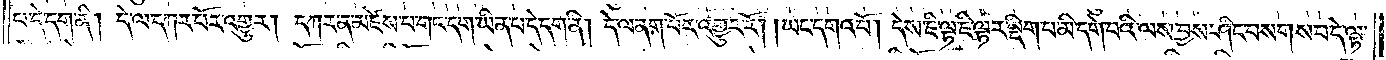པ་དེ་དག་ནི། དེ་ལ་དཀར་པོར་འགྱུར། དཀར་ན་མཛེས་པ་གང་དག་ཡིན་པ་དེ་དག་ནི། དེ་ལ་ནག་པོར་འགྱུར་རོ། །ཡང་དགའ་བོ། དེས་ཇི་ལྟ་ཇི་ལྟར་སྡིག་པ་མི་དགེ་བའི་ལས་བྱས་ཤིང་བསགས་པ་དེ་ལྟ་
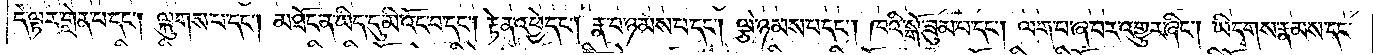དེ་ལྟར་གླེན་པ་དང༌། ལྐུགས་པ་དང༌། མཐོང་ན་ཡིད་དུ་མི་འོང་བ་དང༌། རྟེན་འཕྱེ་དང༌། རྣ་བ་ཉམས་པ་དང༌། ལྕེ་ཉམས་པ་དང༌། ཁའི་སྒོ་ཟུམ་པ་དང༌། ལག་པ་ཞ་བར་འགྱུར་ཞིང༌། ཡི་དྭགས་རྣམས་དང་
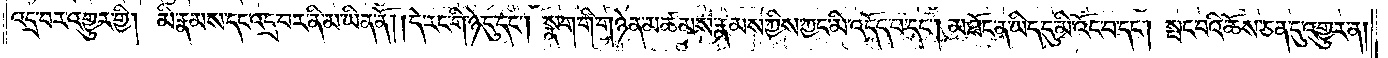འདྲ་བར་འགྱུར་གྱི། མི་རྣམས་དང་འདྲ་བར་ནི་མ་ཡིན་ནོ། །དེ་རང་གི་ཉེ་དུ་དང༌། སྣག་གི་གཉེན་མཚམས་རྣམས་ཀྱིས་ཀྱང་མི་འདོད་པ་དང༌། མཐོང་ན་ཡིད་དུ་མི་འོང་བ་དང༌། སྤང་བའི་ཆོས་ཅན་དུ་འགྱུར་ན།
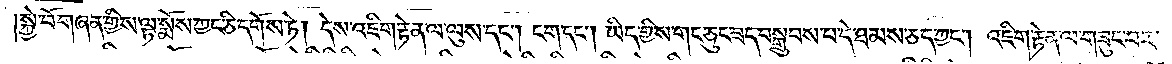སྐྱེ་བོ་གཞན་གྱིས་ལ་སྨོས་ཀྱང་ཅི་དགོས་ཏེ། དེས་འཇིག་རྟེན་ལ་ལུས་དང༌། ངག་དང༌། ཡིད་གྱིས་གང་ཅུང་ཟད་བསྒྲུབས་པ་དེ་ཐམས་ཅད་ཀྱང༌། འཇིག་རྟེན་ལ་གཟུང་བར་
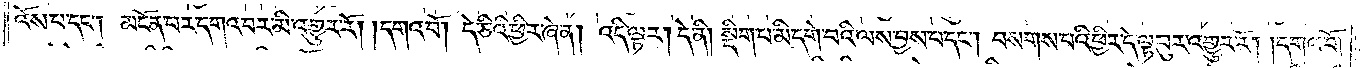འོས་པ་དང༌། མངོན་པར་དགའ་བར་མི་འགྱུར་རོ། །དགའ་བོ། དེ་ཅིའི་ཕྱིར་ཞེ་ན། འདི་ལྟར། དེ་ནི། སྡིག་པ་མི་དགེ་བའི་ལས་བྱས་པ་དང༌། བསགས་པའི་ཕྱིར་དེ་ལྟ་བུར་འགྱུར་རོ། །དགའ་བོ།
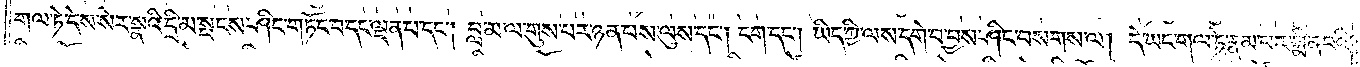གལ་ཏེ་དེས་སེར་སྣའི་དྲི་མ་སྤངས་ཤིང་གཏོང་བ་དང་ལྡན་པ་དང༌། བླ་མ་ལ་གུས་པར་ཉན་པས་ལུས་དང༌། ངག་དང༌། ཡིད་ཀྱི་ལས་དགེ་བ་བྱས་ཤིང་བསགས་ལ། དེ་ཡང་གལ་ཏེ་རྣམ་པར་སྨིན་པའི་
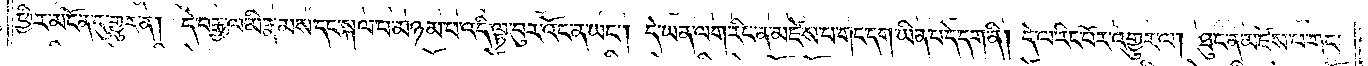ཕྱིར་མངོན་དུ་གྱུར་ན། དེ་བརྒྱ་ལ་མི་རྣམས་དང་སྐལ་པ་མཉམ་པ་འདི་ལྟ་བུར་འོང་ན་ཡང༌། དེ་ཡན་ལག་རིང་ན་མཛེས་པ་གང་དག་ཡིན་པ་དེ་དག་ནི། དེ་ལ་རིང་པོར་འགྱུར་ལ། ཐུང་ན་མཛེས་པ་གང་
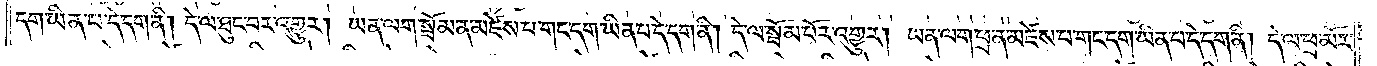དག་ཡིན་པ་དེ་དག་ནི། དེ་ལ་ཐུང་བར་འགྱུར། ཡན་ལག་སྦོམ་ན་མཛེས་པ་གང་དག་ཡིན་པ་དེ་དག་ནི། དེ་ལ་སྦོམ་པོར་འགྱུར། ཡན་ལག་ཕྲ་ན་མཛེས་པ་གང་དག་ཡིན་པ་དེ་དག་ནི། དེ་ལ་ཕྲ་མོར་
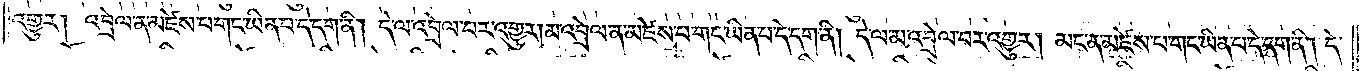འགྱུར། འབྲེལ་ན་མཛེས་པ་གང་ཡིན་པ་དེ་དག་ནི། དེ་ལ་འབྲེལ་བར་འགྱུར། མ་འབྲེལ་ན་མཛེས་པ་གང་ཡིན་པ་དེ་དག་ནི། དེ་ལ་མ་འབྲེལ་བར་འགྱུར། མང་ན་མཛེས་པ་གང་ཡིན་པ་དེ་དག་ནི། དེ་
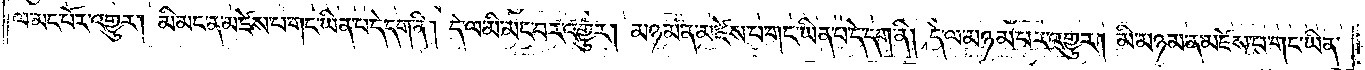ལ་མང་པོར་འགྱུར། མི་མང་ན་མཛེས་པ་གང་ཡིན་པ་དེ་དག་ནི། དེ་ལ་མི་མང་བར་འགྱུར། མཉམ་ན་མཛེས་པ་གང་ཡིན་པ་དེ་དག་ནི། དེ་ལ་མཉམ་པར་འགྱུར། མི་མཉམ་ན་མཛེས་པ་གང་ཡིན་
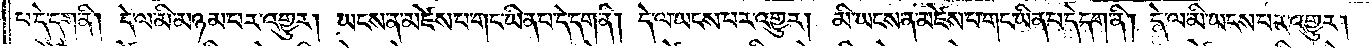པ་དེ་དག་ནི། དེ་ལ་མི་མཉམ་པར་འགྱུར། ཡངས་ན་མཛེས་པ་གང་ཡིན་པ་དེ་དག་ནི། དེ་ལ་ཡངས་པར་འགྱུར། མི་ཡངས་ན་མཛེས་པ་གང་ཡིན་པ་དེ་དག་ནི། དེ་ལ་མི་ཡངས་པར་འགྱུར།
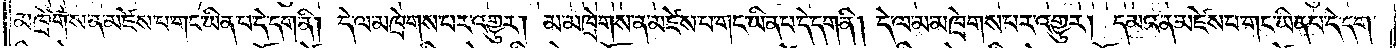མཁྲེགས་ན་མཛེས་པ་གང་ཡིན་པ་དེ་དག་ནི། དེ་ལ་མཁྲེགས་པར་འགྱུར། མ་མཁྲེགས་ན་མཛེས་པ་གང་ཡིན་པ་དེ་དག་ནི། དེ་ལ་མ་མཁྲེགས་པར་འགྱུར། དམའ་ན་མཛེས་པ་གང་ཡིན་པ་དེ་དག་
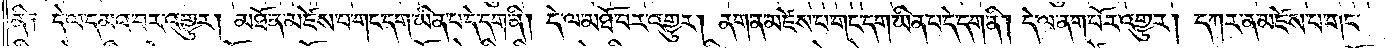ནི། དེ་ལ་དམའ་བར་འགྱུར། མཐོ་ན་མཛེས་པ་གང་དག་ཡིན་པ་དེ་དག་ནི། དེ་ལ་མཐོ་བར་འགྱུར། ནག་ན་མཛེས་པ་གང་དག་ཡིན་པ་དེ་དག་ནི། དེ་ལ་ནག་བོར་འགྱུར། དཀར་ན་མཛེས་པ་གང་
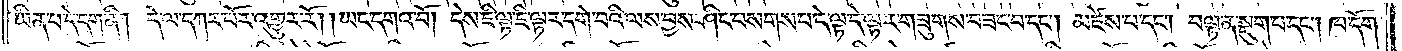ཡིན་པ་དེ་དག་ནི། དེ་ལ་དཀར་པོར་འགྱུར་རོ། །ཡང་དགའ་བོ། དེས་ཇི་ལྟ་ཇི་ལྟར་དགེ་བའི་ལས་བྱས་ཤིང་བསགས་པ་དེ་ལྟ་དེ་ལྟར་གཟུགས་བཟང་བ་དང༌། མཛེས་པ་དང༌། བལྟ་ན་སྡུག་པ་དང༌། ཁ་དོག་
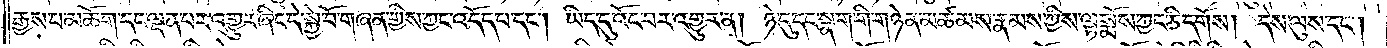རྒྱས་པ་མཆོག་དང་ལྡན་པར་འགྱུར་ཞིང་དེ་སྐྱེ་བོ་གཞན་གྱིས་ཀྱང་འདོད་པ་དང༌། ཡིད་དུ་འོང་བར་འགྱུར་ན། ཉེ་དུ་དང་སྣག་གི་གཉེན་མཚམས་རྣམས་ཀྱིས་ལྟ་སྨོས་ཀྱང་ཅི་དགོས། དེས་ལུས་དང༌།
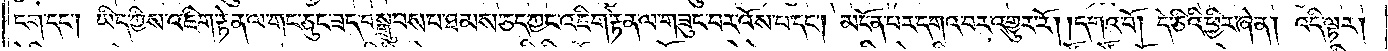ངག་དང༌། ཡིད་ཀྱིས་འཇིག་རྟེན་ལ་གང་ཟུང་ཟད་བསྒྲུབས་པ་ཐམས་ཅད་ཀྱང་འཇིག་རྟེན་ལ་གཟུང་བར་འོས་པ་དང༌། མངོན་པར་དགའ་བར་འགྱུར་རོ། །དགའ་བོ། དེ་ཅིའི་ཕྱིར་ཞེ་ན། འདི་ལྟར།
